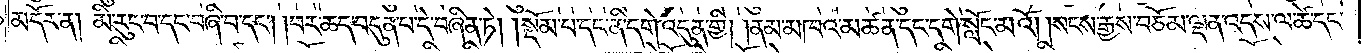མདོར་ན། མི་རུང་བ་དང་བཞི་བ་དང༌། །བར་ཆད་བདུན་པ་དེ་བཞིན་ཏེ། །སྡོམ་པ་དང་ནི་དགེ་འདུན་གྱི། །ནམ་མཁའ་མཚན་དང་དགེ་སློང་མའོ། །སངས་རྒྱས་བཅོམ་ལྡན་འདས་ལ་ཚེ་དང་
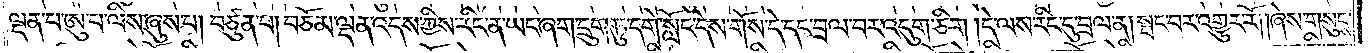ལྡན་པ་ཨུ་པ་ལིས་ཞུས་པ། བཙུན་པ། བཅོམ་ལྡན་འདས་ཀྱིས་རིང་ན་ཡང་ཞག་དྲུག་ཏུ་དགེ་སློང་དེས་གོས་དེ་དང་བྲལ་བར་འདུག་ཅིག །དེ་ལས་རིང་དུ་བྲལ་ན། སྤང་བར་འགྱུར་རོ། །ཞེས་གསུངས་
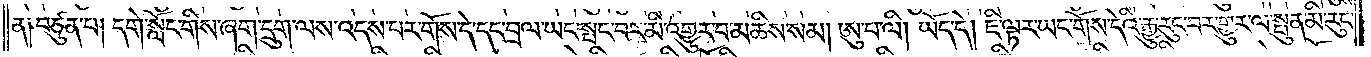ན༑ བཙུན་པ། དགེ་སློང་གིས་ཞག་དྲུག་ལས་འདས་པར་གོས་དེ་དང་བྲལ་ཡང་སྤང་བར་མི་འགྱུར་བ་མཆིས་སམ། ཨུ་པ་ལི། ཡོད་དེ། ཇི་ལྟར་ཡང་གོས་དེའི་རྒྱུ་རུང་བར་གྱུར་ལ་སྤུན་མི་རུང་
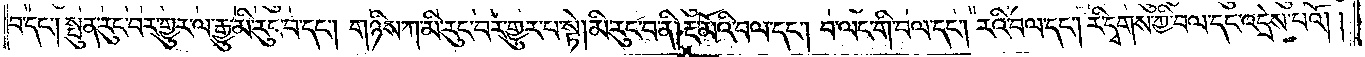བ་དང༌། སྤུན་རུང་བར་གྱུར་ལ་རྒྱུ་མི་རུང་བ་དང༌། གཉིས་ཀ་མི་རུང་བར་གྱུར་པ་སྟེ། མི་རུང་བ་ནི། རྔ་མོའི་བལ་དང༌། བ་ལང་གི་བལ་དང༌། རའི་བལ་དང༌། རི་དྭགས་ཀྱི་བལ་དང་འདྲེས་པའོ། །
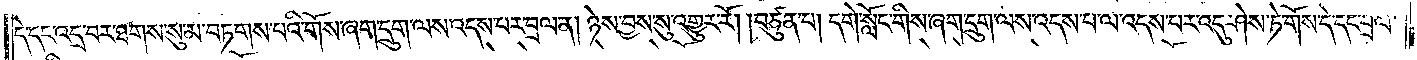དེ་དང་འདྲ་བར་ཐགས་སུ་མ་བཏགས་པའི་གོས་ཞག་དྲུག་ལས་འདས་པར་བྲལ་ན། ཉེས་བྱས་སུ་འགྱུར་རོ། །བཙུན་པ། དགེ་སློང་གིས་ཞག་དྲུག་ལས་འདས་པ་ལ་འདས་པར་འདུ་ཤེས་ཏེ་གོས་དེ་དང་བྲལ་
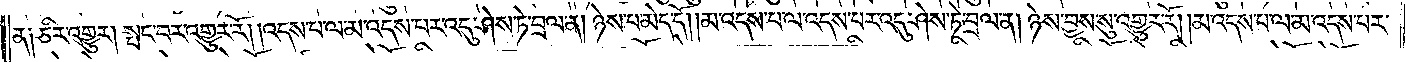ན༑ ཅིར་འགྱུར། སྤང་བར་འགྱུར་རོ། །འདས་པ་ལ་མ་འདས་པར་འདུ་ཤེས་ཏེ་བྲལ་ན། ཉེས་པ་མེད་དོ། །མ་འདས་པ་ལ་འདས་པར་འདུ་ཤེས་ཏེ་བྲལ་ན། ཉེས་བྱས་སུ་འགྱུར་རོ། །མ་འདས་པ་ལ་མ་འདས་པར་
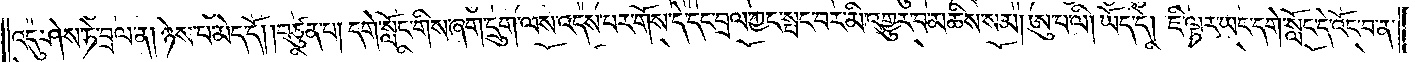འདུ་ཤེས་ཏེ་བྲལ་ན། ཉེས་པ་མེད་དོ། །བཙུན་པ། དགེ་སློང་གིས་ཞག་དྲུག་ལས་འདས་པར་གོས་དེ་དང་བྲལ་ཀྱང་སྤང་བར་མི་འགྱུར་བ་མཆིས་སམ། ཨུ་པ་ལི། ཡོད་དེ། ཇི་ལྟར་ཡང་དགེ་སློང་དེ་འོང་བ་ན་
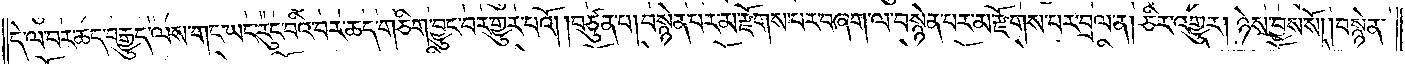དེ་ལ་བར་ཆད་བརྒྱུད་ལས་གང་ཡང་རུང་བའི་བར་ཆད་གཅིག་བྱུང་བར་གྱུར་བའོ། །བཙུན་པ། བསྙེན་པར་མ་རྫོགས་པར་བཞག་ལ་བསྙེན་པར་མ་རྫོགས་པར་བྲལ་ན། ཅིར་འགྱུར། ཉེས་བྱས་སོ། །བསྙེན་
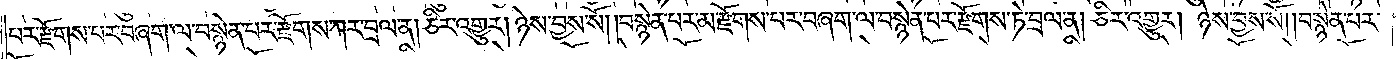པར་རྫོགས་པར་བཞག་ལ་བསྙེན་པར་རྫོགས་ཀར་བྲལ་ན། ཅིར་འགྱུར། ཉེས་བྱས་སོ། །བསྙེན་པར་མ་རྫོགས་པར་བཞག་ལ་བསྙེན་པར་རྫོགས་ཏེ་བྲལ་ན། ཅིར་འགྱུར། ཉེས་བྱས་སོ། །བསྙེན་པར་
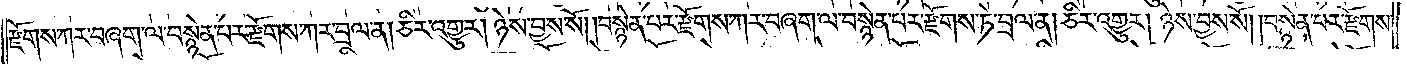རྫོགས་ཀར་བཞག་ལ་བསྙེན་པར་རྫོགས་ཀར་བྲལ་ན། ཅིར་འགྱུར། ཉེས་བྱས་སོ། །བསྙེན་པར་རྫོགས་ཀར་བཞག་ལ་བསྙེན་པར་རྫོགས་ཏེ་བྲལ་ན། ཅིར་འགྱུར། ཉེས་བྱས་སོ། །བསྙེན་པར་རྫོགས་
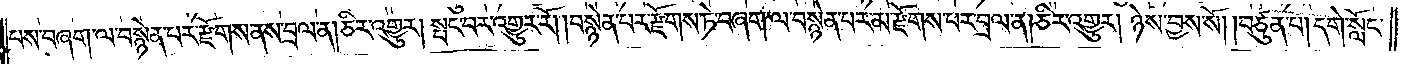པས་བཞག་ལ་བསྙེན་པར་རྫོགས་ནས་བྲལ་ན། ཅིར་འགྱུར། སྤང་བར་འགྱུར་རོ། །བསྙེན་པར་རྫོགས་ཏེ་བཞག་ལ་བསྙེན་པར་མ་རྫོགས་པར་བྲལ་ན། ཅིར་འགྱུར། ཉེས་བྱས་སོ། །བཙུན་པ། དགེ་སློང་
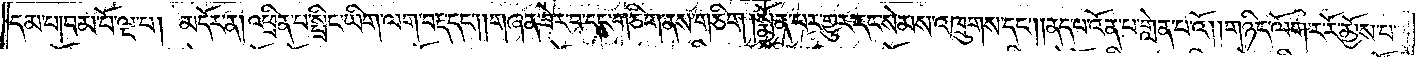དམ་པ། བམ་པོ་ལྔ་པ། མདོར་ན། འཕྲིན་པ་སྤྲིང་ཡིག་ལག་བརྡ་དང༌། །གཞན་ཟེར་བ་དང་གཅིག་ནས་གཅིག །སྨྱོན་པར་གྱུར་དང་སེམས་འཁྲུགས་དང༌། །ནད་པ་འོན་པ་གླེན་པའོ། །གཉིད་ལོག་ར་རོ་མྱོས་པ་
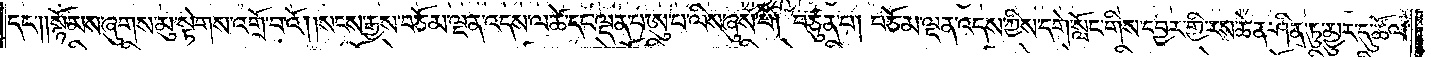དང༌། །སྙོམས་ཞུགས་མུ་སྟེགས་འགྲོ་བ་འོ། །སངས་རྒྱས་བཅོམ་ལྡན་འདས་ལ་ཚེ་དང་ལྡན་བ་ཨུ་པ་ལིས་ཞུས་པ། བཙུན་པ། བཅོམ་ལྡན་འདས་ཀྱིས་དགེ་སློང་གིས་དབྱར་གྱི་རས་ཆེན་ཤིན་ཏུ་མྱུར་དུ་ཚོལ་
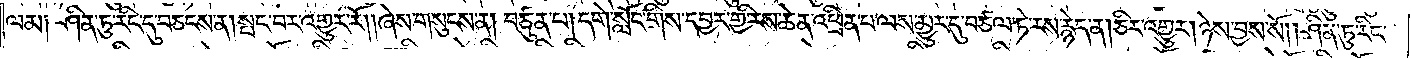ལམ༑ ཤིན་ཏུ་རིང་དུ་བཅངས་ན། སྤང་བར་འགྱུར་རོ། །ཞེས་གསུངས་ན། བཙུན་པ། དགེ་སློང་གིས་དབྱར་གྱི་རས་ཆེན་འཕྲིན་པ་ལས་མྱུར་དུ་བཙལ་ཏེ་རས་རྙེད་ན། ཅིར་འགྱུར། ཉེས་བྱས་སོ། །ཤིན་ཏུ་རིང་
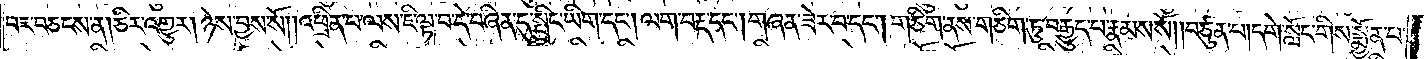བར་བཅངས་ན། ཅིར་འགྱུར། ཉེས་བྱས་སོ། །འཕྲིན་པ་ལས་ཇི་ལྟ་བ་དེ་བཞིན་དུ་སྤྲིང་ཡིག་དང༌། ལག་བརྡ་དང༌། གཞན་ཟེར་བ་དང༌། གཅིག་ནས་གཅིག་ཏུ་བརྒྱུད་པ་རྣམས་སོ། །བཙུན་པ། དགེ་སློང་གིས་སྨྱོན་པ་
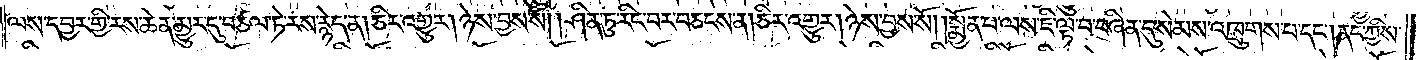ལས་དབྱར་གྱི་རས་ཆེན་མྱུར་དུ་བཙལ་ཏེ་རས་རྙེད་ན། ཅིར་འགྱུར། ཉེས་བྱས་སོ། །ཤིན་ཏུ་རིང་བར་བཅངས་ན། ཅིར་འགྱུར། །ཉེས་བྱས་སོ། །སྨྱོན་པ་ལས་ཇི་ལྟ་བ་བཞིན་དུ་སེམས་འཁྲུགས་པ་དང༌། ནད་ཀྱིས་
